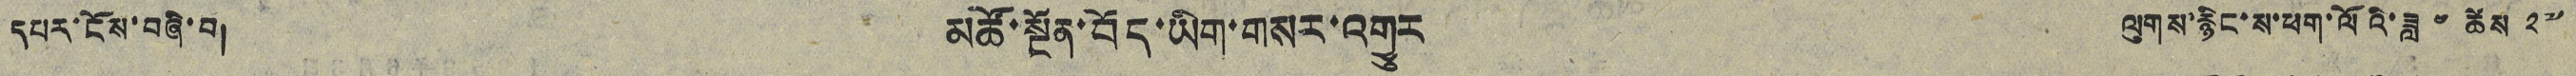དཔར་ངོས་བཞི་པ། མཚོ་སྔོན་བོད་ཡིག་གསར་འགྱུར ལུགས་རྙིང་ས་ཕག་ལོའི་ཟླ ༤ ཚེས ༢༧
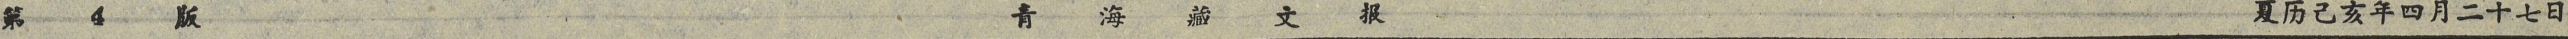第 4 版 青 海 藏 文 报 夏历己亥年四月二十七日
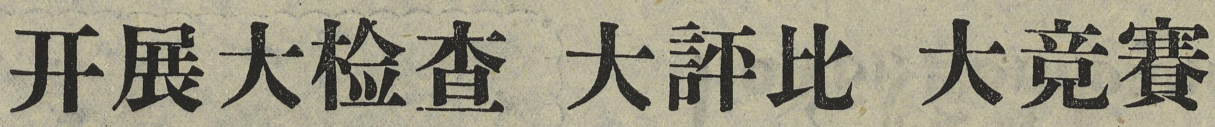开展大检查 大評比 大竞賽
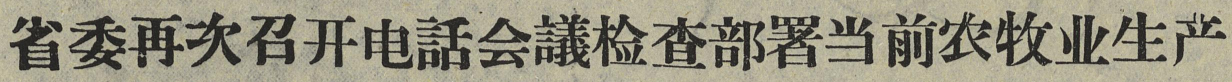省委再次召开电話会議检查部署当前农牧业生产
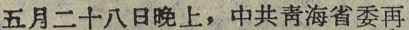五月二十八日晚上，中共靑海省委再
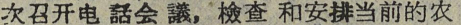次召开电話会議，檢查和安排当前的农
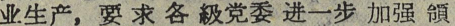业生产，要求各級党委进一步加强領
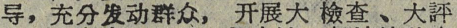导，充分发动群众，开展大檢查、大評
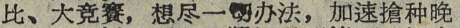比、大竞賽，想尽一切办法，加速搶种晚
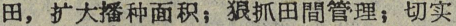田，扩大播种面积；狠抓田間管理；切实
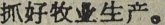抓好牧业生产。
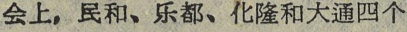会上，民和、乐都、化隆和大通四个
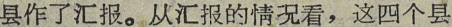县作了汇报。从汇报的情況看，这四个县
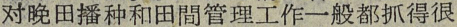对晚田播种和田間管理工作一般都抓得很
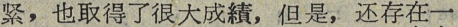紧，也取得了很大成績，但是，还存在一
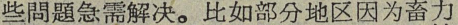些問題急需解决。比如部分地区因为畜力
